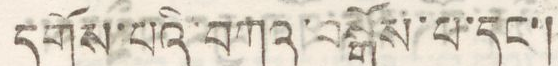དགོས་པའི་བཀའ་བསྒོས་པ་དང་།
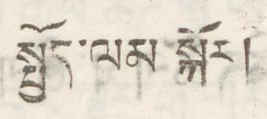སྤྱོད་ལམ་སྐོར།
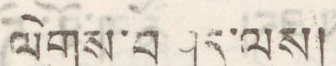ལེགས་བཤད་ལས།
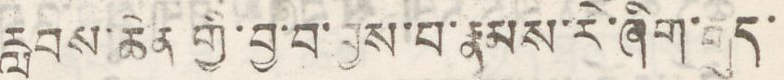རླབས་ཆེན་གྱི་བྱ་བ་བྱས་པ་རྣམས་རེ་ཞིག་རྒུད་
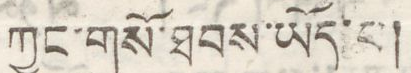ཀྱང་གསོ་ཐབས་ཡོད་བ།
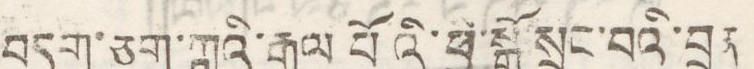བདག་ཅག་ཀླུའི་རྒྱལ པོའི་ཕྱི་སྒོ་སྲུང་བའི་བྲན
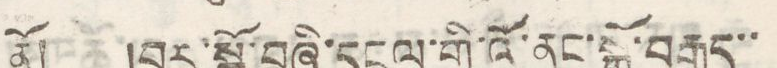ནོ། །བར་སྒོ་བཞི་དངུལ་གྱི་འོ་ནང་སྒོ་བརྒྱད་་
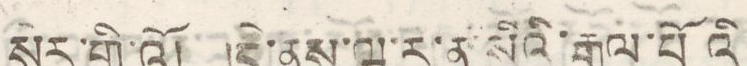སེར་གྱི་འོ། །དེ་ནས་ཝ་ར་ན་སིའི་རྒྱལ་པོའི
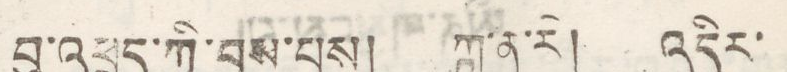བུ་འཕྲད་ཀྱི་བྱས་པས། ཀླུ་ན་རེ། འདིར་
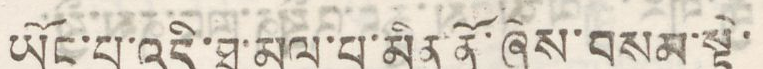ཡོང་པ་འདི་ཐ་མལ་པ་མིན་ནོ་ཞེས་བསམ་སྟེ་
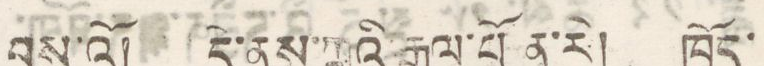བསུ་འོ། དེ་ནས་ཀླུའི་རྒྱལ་པོ ན་རེ། ཁྱོད་
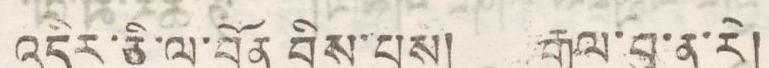འདིར་ཅི་ལ་བྱོན བྲིས་པས། རྒྱལ་བུ་ན་རེ།
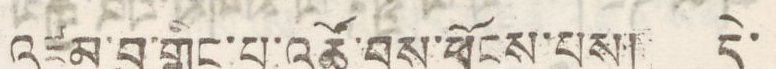འཛམ་བུ་གླིང་པ་འཚོ་བས་ཕོངས་པས། དེ་
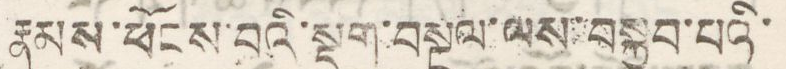རྣམས་ཕོངས་བའི་སྡུག་བསྔལ་ལས་བསྐྱབ་པའི་
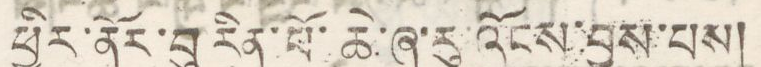ཕྱིར་ནོད་བུ རིན་པོ་ཆེ་ཞུ་རུ་འོངས་བྱས་པས།
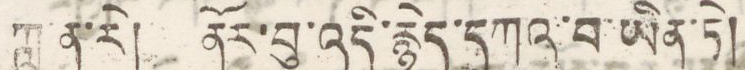ཀླུ་ན་རེ། ནོར་བུ་འདི་རྙེད་དཀའ་བ་ཡོན་ཏེ།
